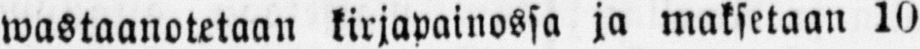wastaanotetaan kirjapainossa ja maksetaan 10
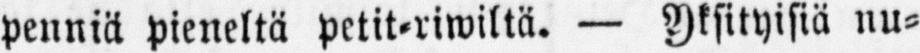penniä pieneltä petit-riwiltä. — Yksityisiä nu-
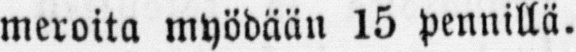meroita myödään 15 pennillä.
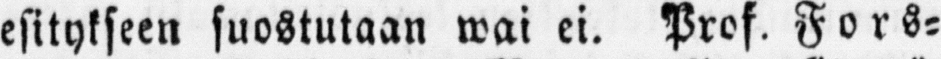esitykseen suostutaan wai ei. Prof. Fors-
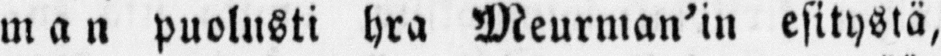man puolusti hra Meurman’in esitystä,
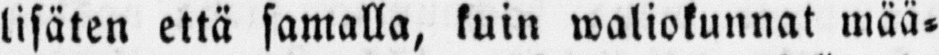lisäten että samalla, kuin waliokunnat mää-
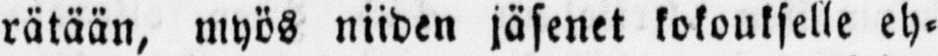rätään, myös niiden jäsenet kokoukselle eh-
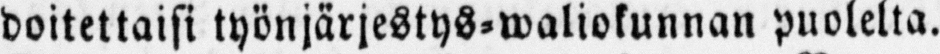doitettaisi työnjärjestys-waliokunnan puolelta.
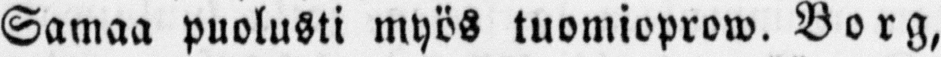Samaa puolusti myös tuomioprow. Borg,
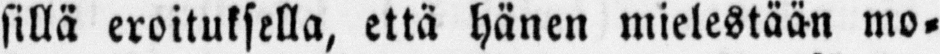sillä eroituksrlla, että hänen mielestään mo-
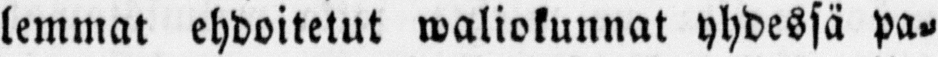lemmat ehdoitetut waliokunnat yhdessä pa-
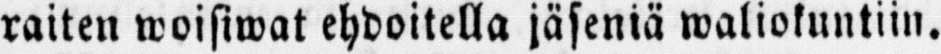raiten woisiwat ehdoitella jäseniä waliokuntiin.
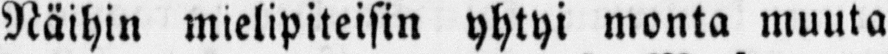Näihin mielipiteisin yhtyi monta muuta
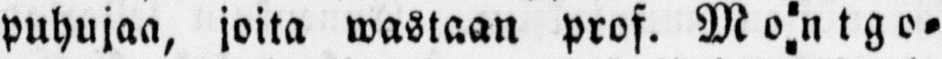puhujaa, joita wastaan prof. Montgo-
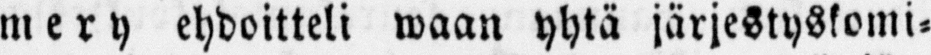mery ehdoitteli waan yhtä järjestyskomi-
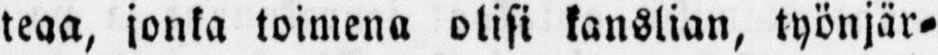teaa, jonka toimena olisi kanslian, työnjär-
